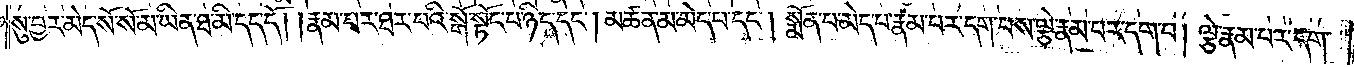སུ་བྱར་མེད་སོ་སོ་མ་ཡིན་ཐ་མི་དད་དོ། །རྣམ་པར་ཐར་བའི་སྒོ་སྟོང་པ་ཉིད་དང༌། མཚན་མ་མེད་པ་དང༌། སྨོན་པ་མེད་པ་རྣམ་པར་དག་པས་ལྕེ་རྣམ་པར་དག་པ། ལྕེ་རྣམ་པར་དག་
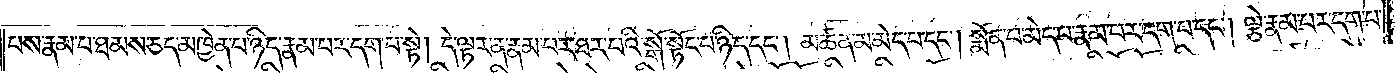པས་རྣམ་པ་ཐམས་ཅད་མཁྱེན་པ་ཉིད་རྣམ་པར་དག་པ་སྟེ། དེ་ལྟར་ན་རྣམ་པར་ཐར་པའི་སྒོ་སྟོང་པ་ཉིད་དང༌། མཚན་མ་མེད་པ་དང༌། སྨོན་པ་མེད་པ་རྣམ་པར་དག་པ་དང༌། ལྕེ་རྣམ་པར་དག་པ་
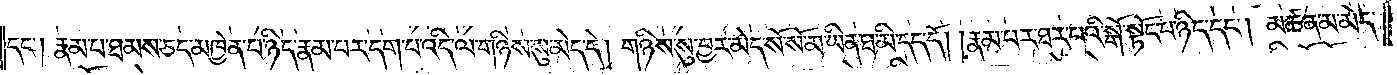དང༌། རྣམ་པ་ཐམས་ཅད་མཁྱེན་པ་ཉིད་རྣམ་པར་དག་པ་འདི་ལ་གཉིས་སུ་མེད་དེ། གཉིས་སུ་བྱར་མེད་སོ་སོ་མ་ཡིན་ཐ་མི་དད་དོ། །རྣམ་པར་ཐར་པའི་སྒོ་སྟོང་པ་ཉིད་དང༌། མཚན་མ་མེད་
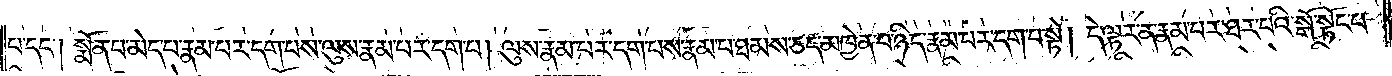པ་དང༌། སྨོན་པ་མེད་པ་རྣམ་པར་དག་པས་ལུས་རྣམ་པར་དག་པ། ལུས་རྣམ་པར་དག་པས་རྣམ་པ་ཐམས་ཅད་མཁྱེན་པ་ཉིད་རྣམ་པར་དག་པ་སྟེ། དེ་ལྟར་ན་རྣམ་པར་ཐར་པའི་སྒོ་སྟོང་པ་
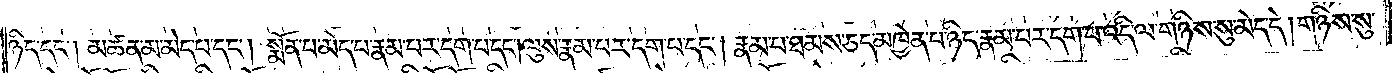ཉིད་དང༌། མཚན་མ་མེད་པ་དང༌། སྨོན་པ་མེད་པ་རྣམ་པར་དག་པ་དང༌། ལུས་རྣམ་པར་དག་པ་དང༌། རྣམ་པ་ཐམས་ཅད་མཁྱེན་པ་ཉིད་རྣམ་པར་དག་པ་འདི་ལ་གཉིས་སུ་མེད་དེ། གཉིས་སུ་
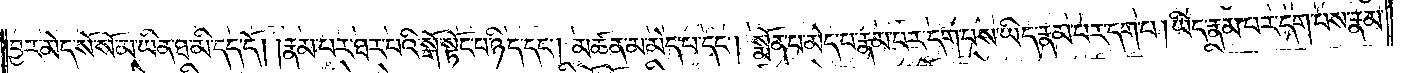བྱར་མེད་སོ་སོ་མ་ཡིན་ཐ་མི་དད་དོ། །རྣམ་པར་ཐར་པའི་སྒོ་སྟོང་པ་ཉིད་དང༌། མཚན་མ་མེད་པ་དང༌། སྨོན་པ་མེད་པ་རྣམ་པར་དག་པས་ཡིད་རྣམ་པར་དག་པ། ཡིད་རྣམ་པར་དག་པས་རྣམ་
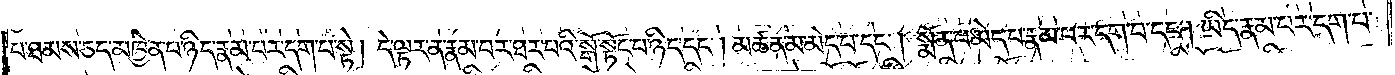པ་ཐམས་ཅད་མཁྱེན་པ་ཉིད་རྣམ་པར་དག་པ་སྟེ། དེ་ལྟར་ན་རྣམ་པར་ཐར་པའི་སྒོ་སྟོང་པ་ཉིད་དང༌། མཚན་མ་མེད་པ་དང༌། སྨོན་པ་མེད་པ་རྣམ་པར་དག་པ་དང༌། ཡིད་རྣམ་པར་དག་པ་
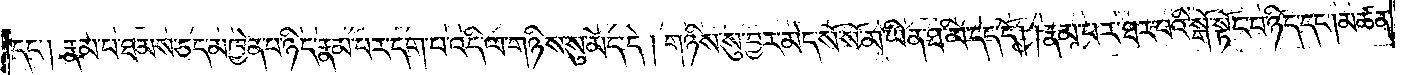དང༌། རྣམ་པ་ཐམས་ཅད་མཁྱེན་པ་ཉིད་རྣམ་པར་དག་པ་འདི་ལ་གཉིས་སུ་མེད་དེ། གཉིས་སུ་བྱར་མེད་སོ་སོ་མ་ཡིན་ཐ་མི་དད་དོ། །རྣམ་པར་ཐར་པའི་སྒོ་སྟོང་པ་ཉིད་དང༌། མཚན་
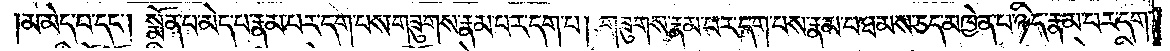མ་མེད་པ་དང༌། སྨོན་པ་མེད་པ་རྣམ་པར་དག་པས་གཟུགས་རྣམ་པར་དག་པ། གཟུགས་རྣམ་པར་དག་པས་རྣམ་པ་ཐམས་ཅད་མཁྱེན་པ་ཉིད་རྣམ་པར་དག་
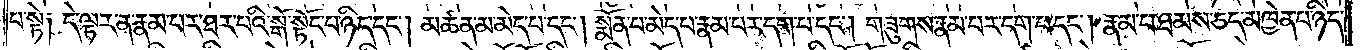པ་སྟེ༑ དེ་ལྟར་ན་རྣམ་པར་ཐར་པའི་སྒོ་སྟོང་པ་ཉིད་དང༌། མཚན་མ་མེད་པ་དང༌། སྨོན་པ་མེད་པ་རྣམ་པར་དག་པ་དང༌། གཟུགས་རྣམ་པར་དག་པ་དང༌། རྣམ་པ་ཐམས་ཅད་མཁྱེན་པ་ཉིད་
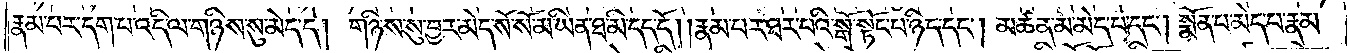རྣམ་པར་དག་པ་འདི་ལ་གཉིས་སུ་མེད་དེ། གཉིས་སུ་བྱར་མེད་སོ་སོ་མ་ཡིན་ཐ་མི་དད་དོ། །རྣམ་པར་ཐར་པའི་སྒོ་སྟོང་པ་ཉིད་དང༌། མཚན་མ་མེད་པ་དང༌། སྨོན་པ་མེད་པ་རྣམ་
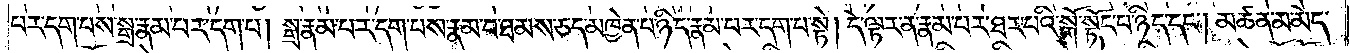པར་དག་པས་སྒྲ་རྣམ་པར་དག་པ། སྒྲ་རྣམ་པར་དག་པས་རྣམ་པ་ཐམས་ཅད་མཁྱེན་པ་ཉིད་རྣམ་པར་དག་པ་སྟེ། དེ་ལྟར་ན་རྣམ་པར་ཐར་པའི་སྒོ་སྟོང་པ་ཉིད་དང༌། མཚན་མ་མེད་
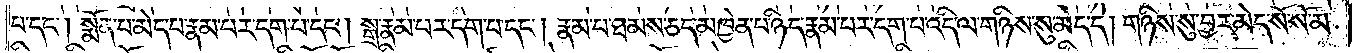པ་དང༌། སྨོན་པ་མེད་པ་རྣམ་པར་དག་པ་དང༌། སྒྲ་རྣམ་པར་དག་པ་དང༌། རྣམ་པ་ཐམས་ཅད་མཁྱེན་པ་ཉིད་རྣམ་པར་དག་པ་འདི་ལ་གཉིས་སུ་མེད་དེ། གཉིས་སུ་བྱར་མེད་སོ་སོ་མ་
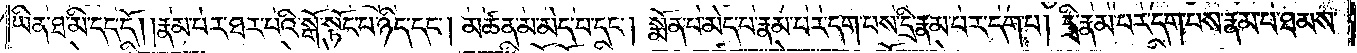ཡིན་ཐ་མི་དད་དོ། །རྣམ་པར་ཐར་པའི་སྒོ་སྟོང་པ་ཉིད་དང༌། མཚན་མ་མེད་པ་དང༌། སྨོན་པ་མེད་པ་རྣམ་པར་དག་པས་དྲི་རྣམ་པར་དག་པ། དྲི་རྣམ་པར་དག་པས་རྣམ་པ་ཐམས་
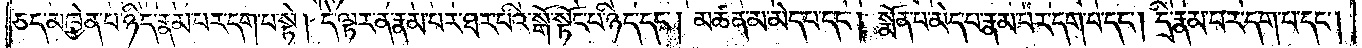ཅད་མཁྱེན་པ་ཉིད་རྣམ་པར་དག་པ་སྟེ། དེ་ལྟར་ན་རྣམ་པར་ཐར་པའི་སྒོ་སྟོང་པ་ཉིད་དང༌། མཚན་མ་མེད་པ་དང༌། སྨོན་པ་མེད་པ་རྣམ་པར་དག་པ་དང༌། དྲི་རྣམ་པར་དག་པ་དང༌།
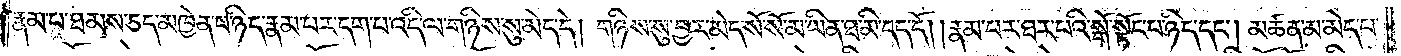རྣམ་པ་ཐམས་ཅད་མཁྱེན་པ་ཉིད་རྣམ་པར་དག་པ་འདི་ལ་གཉིས་སུ་མེད་དེ། གཉིས་སུ་བྱར་མེད་སོ་སོ་མ་ཡིན་ཐ་མི་དད་དོ། །རྣམ་པར་ཐར་པའི་སྒོ་སྟོང་པ་ཉིད་དང༌། མཚན་མ་མེད་པ་
